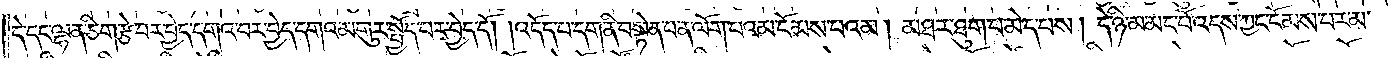དེ་དང་ལྷན་ཅིག་རྩེ་བར་བྱེད་དགའ་བར་བྱེད་དགའ་མགུར་སྤྱོད་པར་བྱེད་དོ། །འདོད་པ་དག་ནི་བསྟེན་པ་ན་ལོག་པའམ་ངོམས་པའམ། མཐར་ཐུག་པ་མེད་པས། དེ་ཉི་མ་མང་པོ་འདས་ཀྱང་ངོམས་པར་མ་
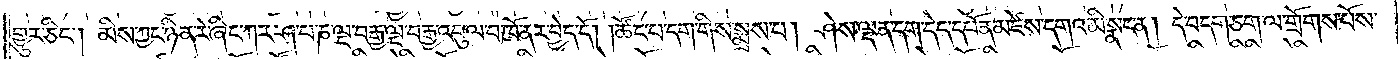གྱུར་ཅིང༌། མིས་ཀྱང་ཉིན་རེ་ཞིང་ཀར་ཤ་པ་ཎ་ལྔ་བརྒྱ་ལྔ་བརྒྱ་འབུལ་བ་ཁོ་ནར་བྱེད་དོ། །ཚོང་པ་དག་གིས་སྨྲས་པ། ཤེས་ལྡན་དག་དེད་དཔོན་མཛེས་དགའ་མི་སྣང་ན། དེ་བདག་ཅག་ལ་གྲོགས་པོས་
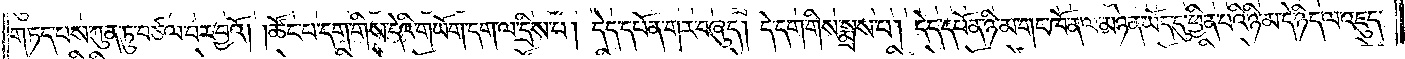གཏད་པས་ཀུན་ཏུ་བཙལ་བར་བྱའོ། །ཚོང་པ་དག་གིས་དེའི་གཡོག་དག་ལ་དྲིས་པ། དེད་དཔོན་གར་བཞུད། དེ་དག་གིས་སྨྲས་པ། དེད་དཔོན་ཉི་མ་གང་ཁོ་ན་ལ་མཉན་ཡོད་དུ་ཕྱིན་པའི་ཉི་མ་དེ་ཉིད་ལ་འཇུད་
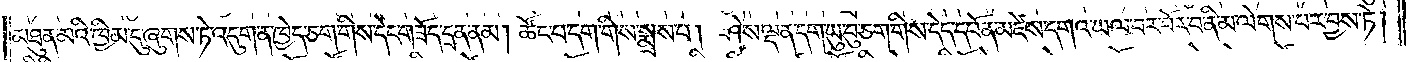མཐུན་མའི་ཁྱིམ་དུ་ཞུགས་ཏེ་འདུག་ན་ཁྱེད་ཅག་གིས་དེང་གཟོད་དྲན་ནམ། ཚོང་པ་དག་གིས་སྨྲས་པ། ཤེས་ལྡན་དག་ཡུ་བུ་ཅག་གིས་དེད་དཔོན་མཛེས་དགའ་ཡལ་བར་བོར་བ་ནི་མ་ལེགས་པར་བྱས་ཏེ།
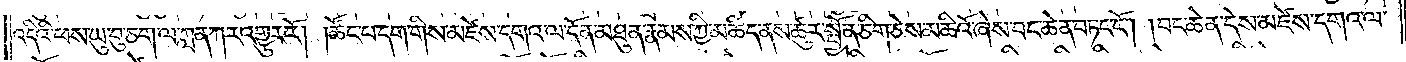འདིའི་ཕས་ཡུ་བུ་ཅག་ལ་ཀླན་ཀར་འགྱུར་རོ། །ཚོང་པ་དག་གིས་མཛེས་དགའ་ལ་དོན་མཐུན་རྣམས་ཀྱི་མཆིད་ནས་ཚུར་སྤྱོན་ཅིག་ཅེས་མཆིའོ་ཞེས་བང་ཆེན་བཏང་ངོ༌། །བང་ཆེན་དེས་མཛེས་དགའ་ལ་
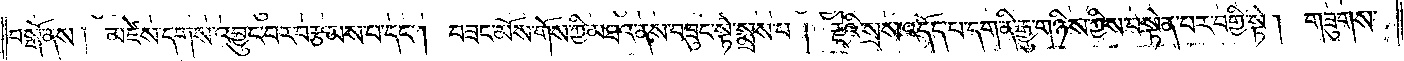བསྒོ་ནས། མཛེས་དགས་འབྱུང་བར་བརྩམས་པ་དང༌། བཟང་མོས་གོས་ཀྱི་མཐའ་ནས་བཟུང་སྟེ་སྨྲས་པ། རྗེའི་སྲས་འདོད་པ་དག་ནི་རྒྱུ་གཉིས་ཀྱིས་བསྟེན་པར་བགྱི་སྟེ། གཟུགས་
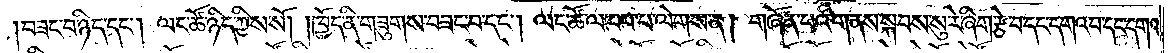བཟང་བ་ཉིད་དང༌། ལང་ཚོ་ཉིད་ཀྱིས་སོ། །ཁྱོད་ནི་གཟུགས་བཟང་བ་དང༌། ལང་ཚོ་ལ་བབ་པ་ལེགས་ན། གཞོན་པའི་གནས་སྐབས་སུ་རེ་ཞིག་རྩེ་བ་དང་དགའ་བ་དང་དགའ་
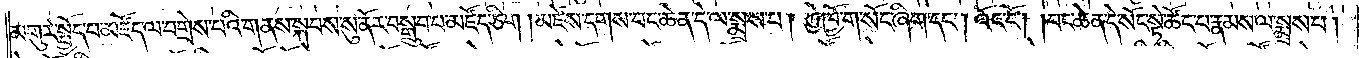མགུར་སྤྱོད་པ་མཛོད་ལ་བགྲེས་པའི་གནས་སྐབས་སུ་ནོར་བསྒྲུབ་པ་མཛོད་ཅིག །མཛེས་དགས་བང་ཆེན་དེ་ལ་སྨྲས་པ། ཀྱེ་ཁྱོ་ག་སོང་ཞིག་དང༌། འོང་ངོ༌། །བང་ཆེན་དེ་སོང་སྟེ་ཚོང་པ་རྣམས་ལ་སྨྲས་པ།
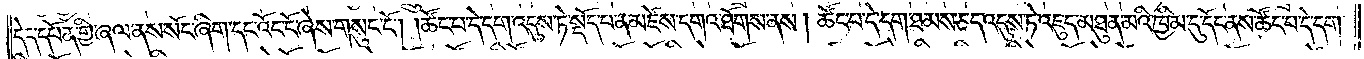དེད་དཔོན་གྱི་ཞལ་ནས་སོང་ཞིག་དང་འོང་ངོ་ཞེས་གསུང་ངོ༌། །ཚོང་པ་དེ་དག་འདུས་ཏེ་སྡོད་པ་ན་མཛེས་དགའ་ཐོགས་ནས། ཚོང་པ་དེ་དག་ཐམས་ཅད་འདུས་ཏེ་འཇུད་མཐུན་མའི་ཁྱིམ་དུ་དོང་ནས་ཚོང་པ་དེ་དག་
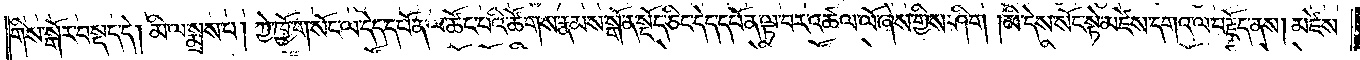གིས་སྒོར་བསྡད་དེ། མི་ལ་སྨྲས་པ། ཀྱེ་ཁྱོ་ག་སོང་ལ་དེད་དཔོན་ལ་ཚོང་པའི་ཚོགས་རྣམས་སྒོ་ན་སྡོད་ཅིང་དེད་དཔོན་ལྟ་བར་འཚལ་ལོ་ཞེས་གྱིས་ཤིག །མི་དེས་སོང་སྟེ་མཛེས་དགའ་ལ་བརྗོད་ནས། མཛེས་
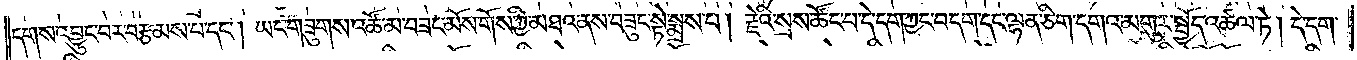དགས་འབྱུང་བར་བརྩམས་པ་དང༌། ཡང་གཟུགས་འཚོ་མ་བཟང་མོས་གོས་ཀྱི་མཐའ་ནས་བཟུང་སྟེ་སྨྲས་པ། རྗེའི་སྲས་ཚོང་བ་དེ་དག་ཀྱང་བདག་དང་ལྷན་ཅིག་དགའ་མགུར་སྤྱོད་འཚལ་ཏེ། དེ་དག་
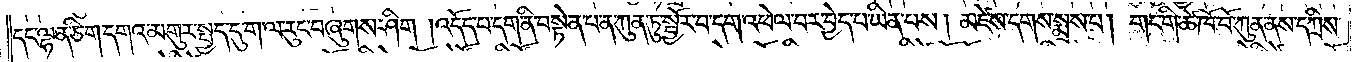དང་ལྷན་ཅིག་དགའ་མགུར་སྤྱད་དུ་ག་ལ་རུང་བཞུགས་ཤིག །འདོད་པ་དག་ནི་བསྟེན་པ་ན་ཀུན་ཏུ་སྦྱོར་བ་དག་འཕེལ་བར་བྱེད་པ་ཡིན་པས། མཛེས་དགས་སྨྲས་པ། གང་གི་ཚེ་ཁོ་བོ་ཀུན་ནས་དཀྲིས་
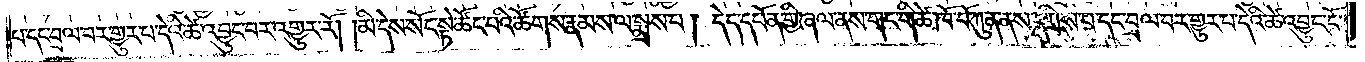པ་དང་བྲལ་བར་གྱུར་པ་དེའི་ཚེ་འབྱུང་བར་འགྱུར་རོ། །མི་དེས་སོང་སྟེ་ཚོང་པའི་ཚོགས་རྣམས་ལ་སྨྲས་པ། དེད་དཔོན་གྱི་ཞལ་ནས་གང་གི་ཚེ་ཁོ་བོ་ཀུན་ནས་དཀྲིས་པ་དང་བྲལ་བར་གྱུར་པ་དེའི་ཚེ་འབྱུང་ངོ་
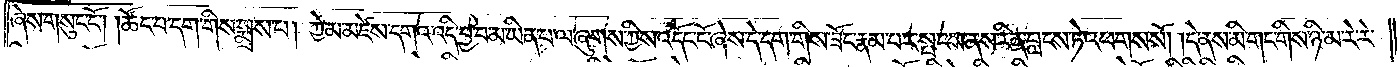ཞེས་གསུང་ངོ༌། །ཚོང་པ་དག་གིས་སྨྲས་པ། ཀྱེ་མ་མཛེས་དགའ་འདི་བྱ་བ་མ་ཡིན་པ་ལ་ཞུགས་ཀྱིས་འདོང་ངོ་ཞེས་དེ་དག་གིས་ཟོང་རྣམ་པར་སྤངས་ནས་རིན་བླངས་ཏེ་འཕགས་སོ། །དེ་ནས་མི་གང་གིས་ཉི་མ་རེ་རེ་
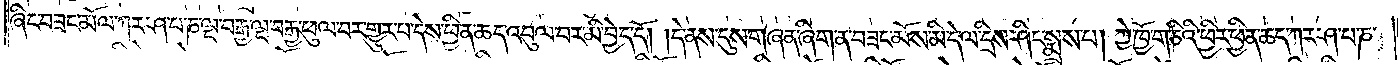ཞིང་བཟང་མོ་ལ་ཀར་ཤ་པ་ཎ་ལྔ་བརྒྱལྔ་བརྒྱ་ཕུལ་བར་གྱུར་པ་དེས་ཕྱིན་ཆད་འབུལ་བར་མི་བྱེད་དོ། །དེ་ནས་དུས་གཞན་ཞིག་ན་བཟང་མོས་མི་དེ་ལ་དྲིས་ཤིང་སྨྲས་པ། ཀྱེ་ཁྱོ་ག་ཅིའི་ཕྱིར་ཕྱིན་ཆད་ཀར་ཤ་པ་ཎ་
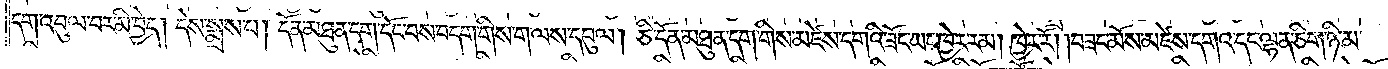དག་འབུལ་བར་མི་བྱེད། དེས་སྨྲས་པ། དོན་མཐུན་དག་དོང་བས་བདག་གིས་ག་ལས་དབུལ། ཅི་དོན་མཐུན་དག་གིས་མཛེས་དགའི་ཟོང་ཡང་ཁྱེར་རམ། ཁྱེར་རོ། །བཟང་མོས་མཛེས་དགའ་དང་ལྷན་ཅིག་ཉི་མ་
